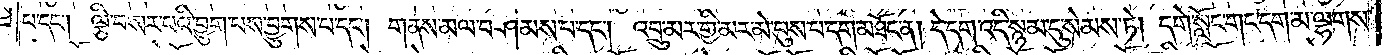པ་དང༌། ལྕི་བ་སར་པའི་བྱུག་པས་བྱུགས་པ་དང༌། གནས་མལ་བཤམས་པ་དང༌། འབྲུ་མར་གྱི་མར་མེ་བུས་པ་དག་མཐོང་ན། དེ་དག་འདི་སྙམ་དུ་སེམས་ཏེ། དགེ་སློང་གང་དག་མ་ལྷགས་
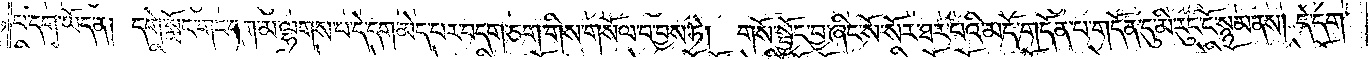པ་དག་ཡོད་ན། དགེ་སློང་གང་དག་མ་ལྷགས་པ་དེ་དག་མེད་པར་བདག་ཅག་གིས་གསོལ་བ་བྱས་ཏེ། གསོ་སྦྱོང་བྱ་ཞིང་སོ་སོར་ཐར་པའི་མདོ་གདོན་པ་གདོན་དུ་མི་རུང་ངོ་སྙམ་ནས། དེ་དག་
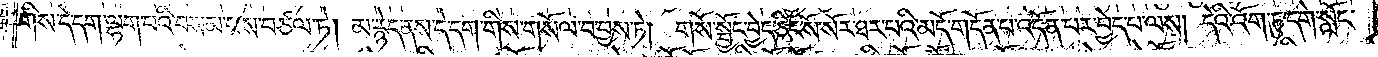གིས་དེ་དག་ལྷག་པའི་བསམ་པས་བཙལ་ཏེ། མ་རྙེད་ནས་དེ་དག་གིས་གསོལ་བ་བྱས་ཏེ། གསོ་སྦྱོང་བྱེད་ཅིང་སོ་སོར་ཐར་པའི་མདོ་གདོན་པ་འདོན་པར་བྱེད་པ་ལས། དེའི་འོག་ཏུ་དགེ་སློང་
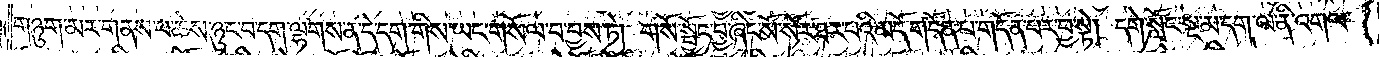གཉུག་མར་གནས་པ་ཆེས་ཉུང་བ་དག་ལྷགས་ན་དེ་དག་གིས་ཡང་གསོལ་བ་བྱས་ཏེ། གསོ་སྦྱོང་བྱ་ཞིང་སོ་སོར་ཐར་པའི་མདོ་གདོན་པ་གདོན་པར་བྱ་སྟེ། དགེ་སློང་སྔ་མ་དག་ལ་ནི་འགལ་
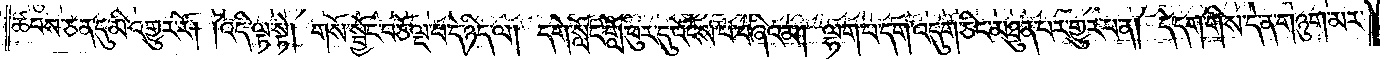ཚབས་ཅན་དུ་མི་འགྱུར་རོ། །འདི་ལྟ་སྟེ། གསོ་སྤྱོང་བཅོ་ལྔ་པ་དེ་ཉིད་ལ། དགེ་སློང་གློ་བུར་དུ་འོངས་པ་བཞིའམ། ལྷག་པ་དག་འདུག་ཅིང་མཐུན་པར་གྱུར་པ་ན། དེ་དག་གིས་དེ་ན་གཉུག་མར་
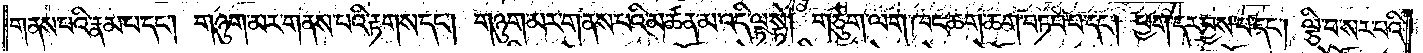གནས་པའི་རྣམ་པ་དང༌། གཉུག་མར་གནས་པའི་རྟགས་དང༌། གཉུག་མར་གནས་པའི་མཚན་མ་འདི་ལྟ་སྟེ། གཙུག་ལག་ཁང་ཆག་ཆག་བཏབ་པ་དང༌། ཕྱག་དར་བྱས་པ་དང༌། ལྕི་བ་སར་པའི་
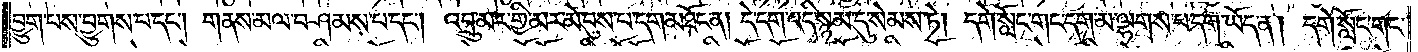བྱུག་པས་བྱུགས་པ་དང༌། གནས་མལ་བཤམས་པ་དང༌། འབྲུ་མར་གྱི་མར་མེ་བུས་པ་དག་མཐོང་ན། དེ་དག་འདི་སྙམ་དུ་སེམས་ཏེ། དགེ་སློང་གང་དག་མ་ལྷགས་པ་དག་ཡོད་ན། དགེ་སློང་གང་
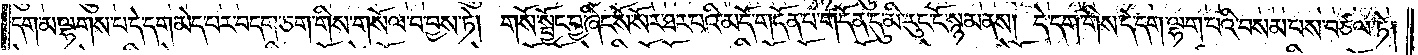དག་མ་ལྷགས་པ་དེ་དག་མེད་པར་བདག་ཅག་གིས་གསོལ་བ་བྱས་ཏེ། གསོ་སྦྱོང་བྱ་ཞིང་སོ་སོར་ཐར་པའི་མདོ་གདོན་པ་གདོན་དུ་མི་རུང་ངོ་སྙམ་ནས། དེ་དག་གིས་དེ་དག་ལྷག་པའི་བསམ་པས་བཙལ་ཏེ།
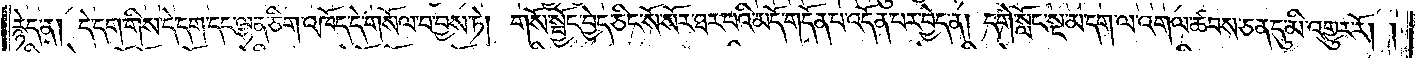རྙེད་ན། དེ་དག་གིས་དེ་དག་དང་ལྷན་ཅིག་འཁོད་དེ་གསོལ་བ་བྱས་ཏེ། གསོ་སྦྱོང་བྱེད་ཅིང་སོ་སོར་ཐར་པའི་མདོ་གདོན་པ་འདོན་པར་བྱེད་ན། དགེ་སློང་སྔ་མ་དག་ལ་འགལ་ཚབས་ཅན་དུ་མི་འགྱུར་རོ། །
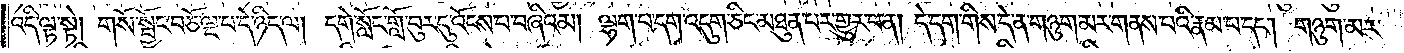འདི་ལྟ་སྟེ། གསོ་སྦྱོང་བཅོ་ལྔ་པ་དེ་ཉིད་ལ། དགེ་སློང་གློ་བུར་དུ་འོངས་པ་བཞིའམ། ལྷག་པ་དག་འདུག་ཅིང་མཐུན་པར་གྱུར་པ་ན། དེ་དག་གིས་དེ་ན་གཉུག་མར་གནས་པའི་རྣམ་པ་དང༌། གཉུག་མར་
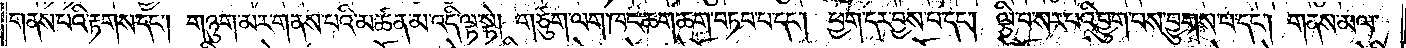གནས་པའི་རྟགས་དང༌། གཉུག་མར་གནས་པའི་མཚན་མ་འདི་ལྟ་སྟེ། གཙུག་ལག་ཁང་ཆག་ཆག་བཏབ་པ་དང༌། ཕྱག་དར་བྱས་པ་དང༌། ལྕི་བ་སར་པའི་བྱུག་པས་བྱུགས་པ་དང༌། གནས་མལ་
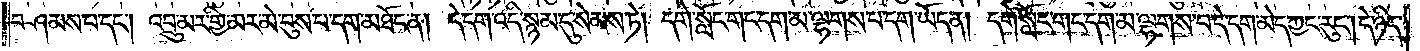བཤམས་པ་དང༌། འབྲུ་མར་གྱི་མར་མེ་བུས་པ་དག་མཐོང་ན། དེ་དག་འདི་སྙམ་དུ་སེམས་ཏེ། དགེ་སློང་གང་དག་མ་ལྷགས་པ་དག་ཡོད་ན། དགེ་སློང་གང་དག་མ་ལྷགས་པ་དེ་དག་མེད་ཀྱང་རུང༌། དེ་ཉིད་
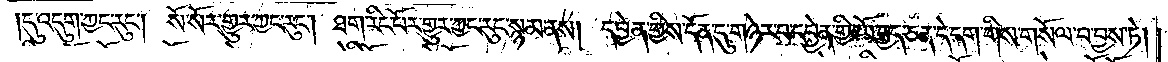དུ་འདུག་ཀྱང་རུང༌། སོ་སོར་གྱུར་ཀྱང་རུང༌། ཐག་རིང་པོར་གྱུར་ཀྱང་རུང་སྙམ་ནས། དབྱེན་གྱིས་དོན་དུ་གཉེར་བ་དབྱེན་གྱི་ཡོ་བྱད་ཅན་དེ་དག་གིས་གསོལ་བ་བྱས་ཏེ།
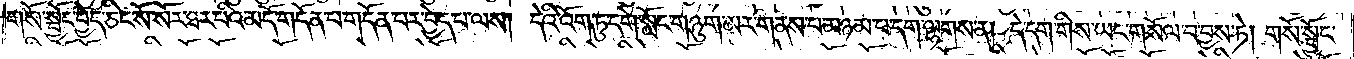གསོ་སྦྱོང་བྱེད་ཅིང་སོ་སོར་ཐར་པའི་མདོ་གདོན་པ་གདོན་པར་བྱེད་པ་ལས། དེའི་འོག་ཏུ་དགེ་སློང་གཉུག་མར་གནས་པ་མཉམ་པ་དག་ལྷགས་ན། དེ་དག་གིས་ཡང་གསོལ་བ་བྱས་ཏེ། གསོ་སྦྱོང་
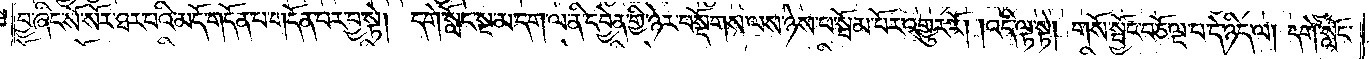བྱ་ཞིང་སོ་སོར་ཐར་པའི་མདོ་གདོན་པ་གདོན་བར་བྱ་སྟེ། དགེ་སློང་སྔ་མ་དག་ལ་ནི་དབྱེན་གྱི་ཉེར་བསྡོགས་ལས་ཉེས་པ་སྦོམ་པོར་འགྱུར་རོ། །འདི་ལྟ་སྟེ། གསོ་སྦྱོང་བཅོ་ལྔ་པ་དེ་ཉིད་ལ། དགེ་སློང་
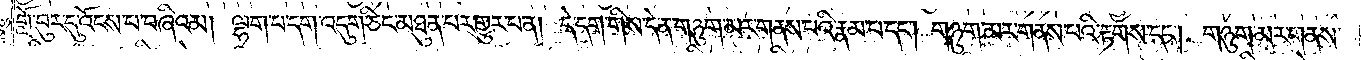གློ་བུར་དུ་འོངས་པ་བཞིའམ། ལྷག་པ་དག་འདུག་ཅིང་མཐུན་པར་གྱུར་པ་ན། དེ་དག་གིས་དེ་ན་གཉུག་མར་གནས་པའི་རྣམ་པ་དང༌། གཉུག་མར་གནས་པའི་རྟགས་དང༌། གཉུག་མར་གནས་
